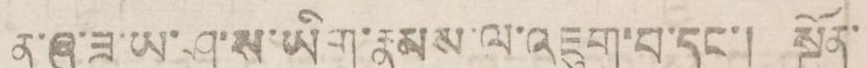ན་ཞ་ཟ་ཡ་ཤ་ས་ཡིག་རྣམས་ལ་འཇུག་བ་དང་། སྔོན་
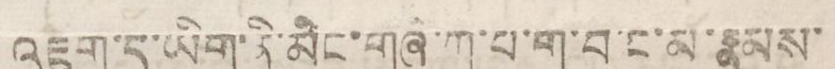འཇུག་ད་ཡིག་ནི་མིང་གཞི་ཀ་པ་ག་བ་ང་མ་རྣམས་
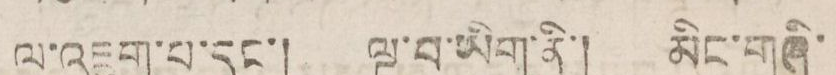ལ་འཇུག་པ་དང་། ལྔ་བ་ཡིག་ནི། མིང་གཞི་
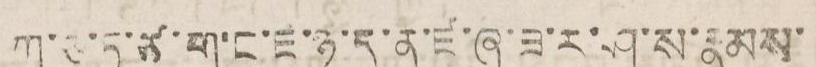ཀ་ཅ་ཏ་ཙ་ག་ང་ཇ་ཉ་ད་ན་ཛ་ཞ་ཟ་ར་ཤ་ས་རྣམས་
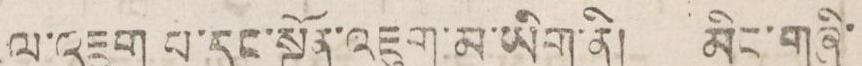ལ་འཇུག པ་དང་སྔོན་འཇུག་མ་ཡིན་ནི། མིང་གཞི་
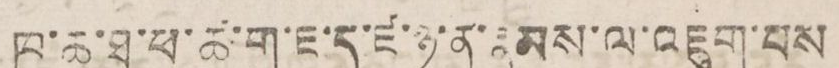ཁ་ཆ་ཐ་ཕ་ཚ་ག་ཇ་ད་ཛ་ཉ་ན་རྣམས་ལ་འཇུག་པས
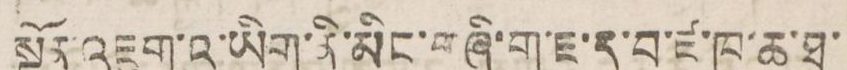སྔོན་འཇུག་འ་ཡིག་ནི་མིང་གཞི་ག་ཇ་ད་བ་ཛ་ཁ་ཆ་ཐ་
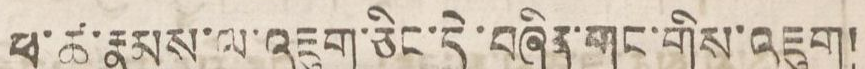ཕ་ཚ་རྣམས་ལ་འཇུག་ཅིང་དེ་བཞིན་གང་གིས་འཇུག།།
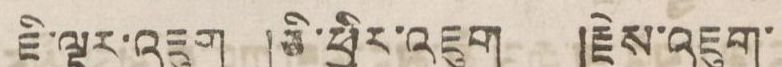ཇི་ལྟར་འཇུག །ཅི་ཕྱིར་འཇུག །རྗེས་འཇུག་
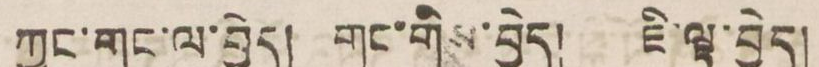ཀྱང་གང་ལ་བྱེད། གང་གིས་བྱེད། ཇི་ལྟ་བྱེད།
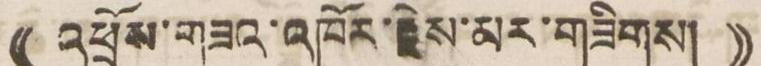(( འཕྲོས་གཟའ་འཁོར་རྗེས་མར་གཟིགས། ))
